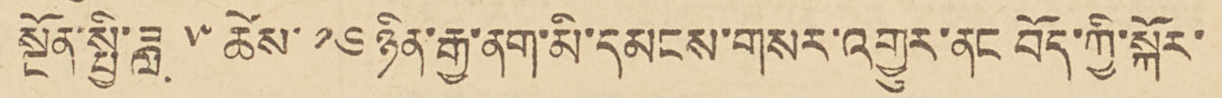སྔོན་སྤྱི་ཟླ་ ༥ ཚེས་ ༡༦ ཉིན་རྒྱ་ནག་མི་དམངས་གསར་འགྱུར་ནང བོད་ཀྱི་སྐོར་
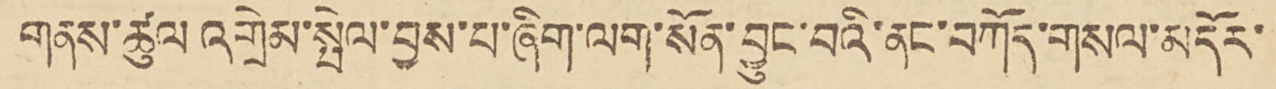གནས་ཚུལ་འགྲེམ་སྤེལ་བྱས་པ་ཞིག་ལག་སོན་བྱུང་བའི་ནང་བཀོད་གསལ་མདོར་
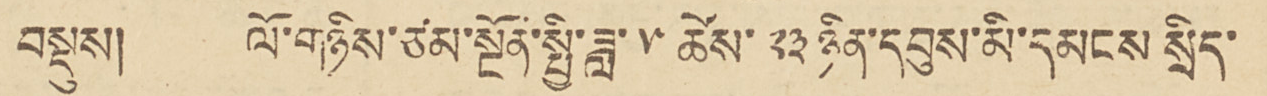བསྡུས། ལོ་གཉིས་ཙམ་སྔོན་སྤྱི་ཟླ་༥ཚེས་༢༣ཉིན་དབུས་མི་དམངས སྲིད་
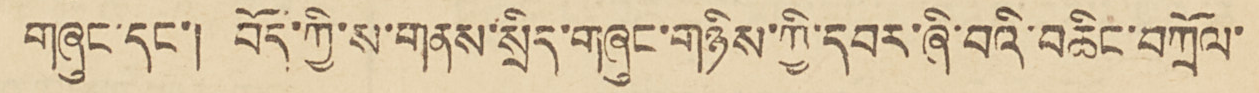གཞུང་དང་། བོད་ཀྱི་ས་གནས་སྲིད་གཞུང་གཉིས་ཀྱི་དབར་ཞི་བའི་བཆིང་བཀྲོལ་
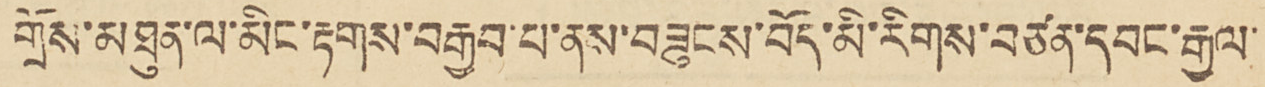གྲོལ་མཐུན་ལ་མིང་རྟགས་བརྒྱབ་པ་ནས་བཟུངས་བོད་མི་རིགས་བཙན་དབང་རྒྱལ་
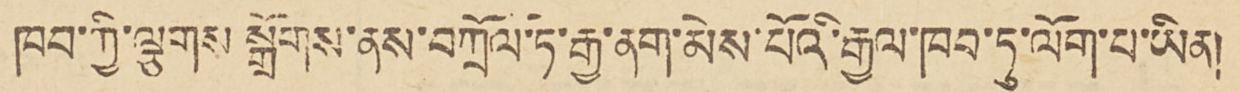ཁབ་ཀྱི་ལྕགས  སྒྲོགས་ནས་བཀྲོལ་ཏ་རྒྱ་ནག་མེས་པོའི་རྒྱལ་ཁབ་ཏུ་ལོག་པ་ཡིན།
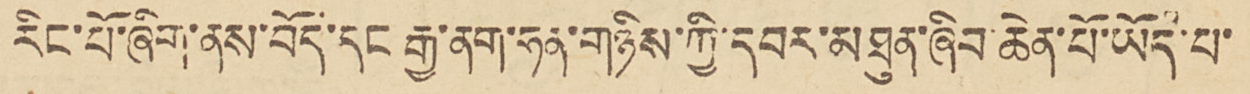རིང་པོ་ཞིག་ནས་བོད་དང རྒྱ་ནག་ཧན་གཉིས་ཀྱི་དབར་མཐུན་ཞིབ་ཆེན་པོ་ཡོད་པ་
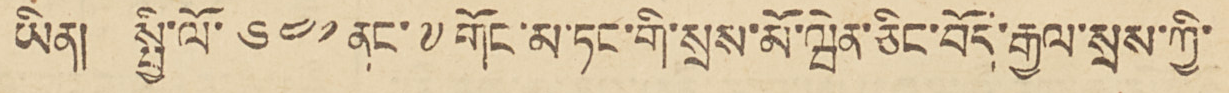ཡིན། སྤྱི་ལོ་ ༦༤༡ནང་༸གོང་མ་ཏང་གི་སྲས་མོ་ཝེན་ཅིང་བོད་རྒྱལ་སྲས་ཀྱི་
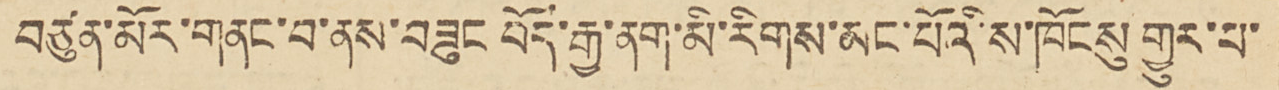བཙུན་མོར་གནང་བ་ནས་བཟུང་བོད་རྒྱ་ནག་མི་རིགས་མང་པོའི་ཁོངསུ གྱུར་པ་
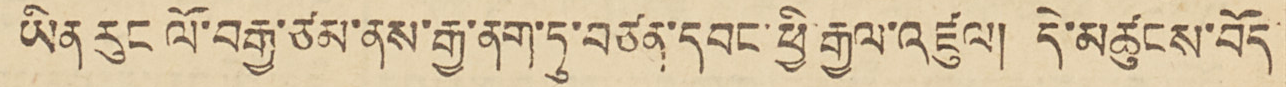ཡིན་རུང ལོ་བརྒྱ་ཙམ་ནས་རྒྱ་ནག་ཏུ་བཙན་དབང་ཕྱི་རྒྱལ་འཛུལ། དེ་མཚུངས་བོད
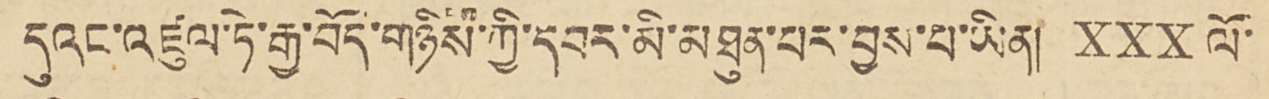དུའང་འཛུལ་ཏེ་རྒྱ་བོད་གཉིས་ཀྱི་དབར་མི་མཐུན་པར་བྱས་པ་ཡིན། XXX།ལོ་
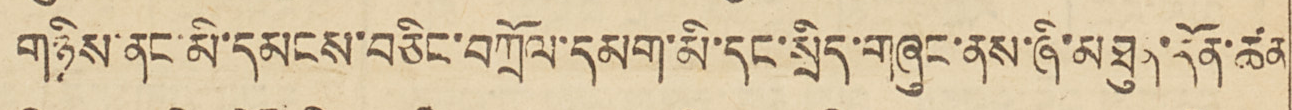གཉིས་ནང་མི་དམངས་བཅིང་བཀྲོལ་དམག་མི་དང་སྲིད་གཞུང་ནས་ཞི་མཐུན་དོན་ཚན
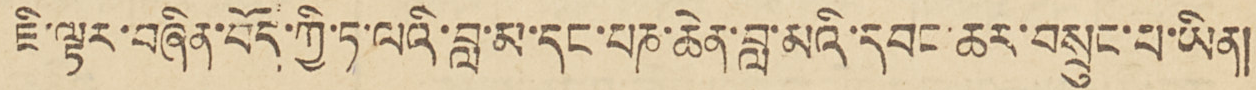ཇི་ལྟར་བཞིན་བོད་ཀྱི་ཏ་ལའི་བླ་མ་དང་པན་ཆེན་བླ་མའི་དབང་ཆར་བསྲུང་པ་ཡིན།
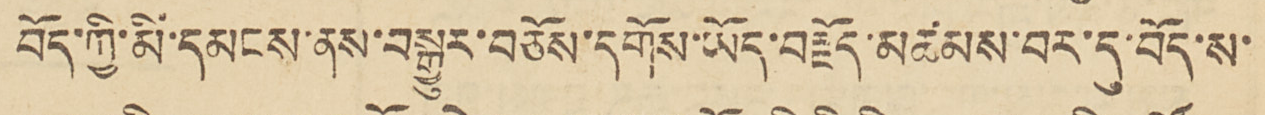བོད་ཀྱི་མི་དམངས་ནས་བསྒྱུར་བཅོས་དགོས་ཡོད་བརྗོད་མཚམས་བར་དུ་བོད་ས་
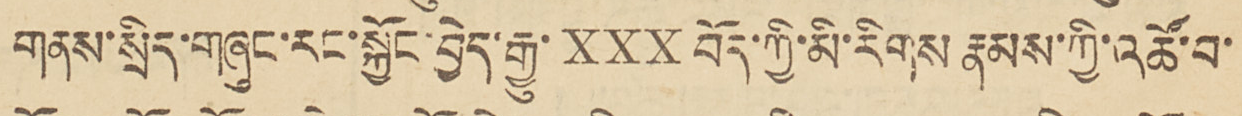གནས་སྲིད་གཞུང་རང་སྐྱོང་བྱེད་རྒྱུ་ XXX བོད་ཀྱི་མི་རིགས རྣམས་ཀྱི་འཚོ་བ་
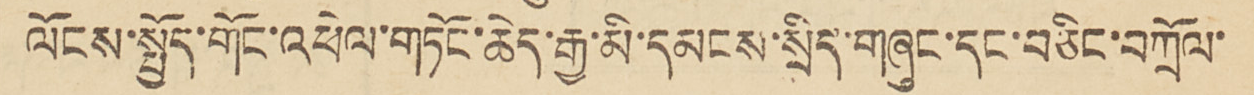ལོངས་སྤྱོད་གོང་འཕེལ་གཏོང་ཆེད་རྒྱ་མི་དམངས་སྲིད་གཞུང་དང་བཅིང་བཀྲོལ་
